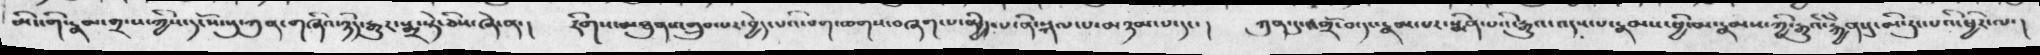མིང་གི་རྣམ་གྲངས་ཀྱིས་དངོས་སུ་ཀུན་གཞིའ་ཉིད་རྒྱུར་སྨྲ་སྟེ་ཅིས་ཞེ་ན་།   རིགས་མཐུན་འགྲུབ་པར་བྱེད་པའི་བག་ཆགས་བཞག་པ་མྱིད་པ་ནི་སྐལ་པ་མཉམ་པ་དང་།  ཀུན་དུ་འགྲོ་བ་དང་རྣམ་པར་སྨིན་པའི་རྒྱུའ་འདས་པ་རྣམས་ཕྱི་མ་རྣམས་ཀྱི་རྒྱུའི་རྐྱེན་དུ་མི་རུང་པའི་ཕྱིར་ལ
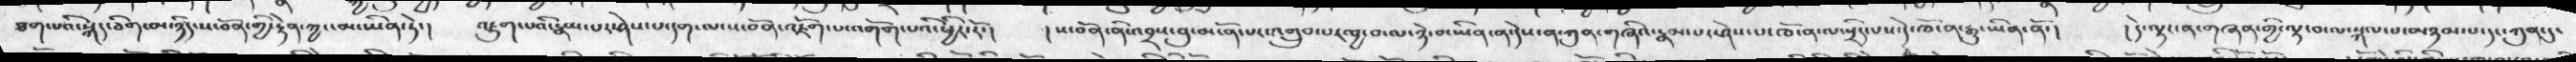ཐག་པའི་སྐད་ཅིག་མ་ཉིད་ས་བོན་གྱི་རྟེན་ཀྱང་མ་ཡིན་ཏེ་།  འཇུག་པའི་རྣམ་པར་ཤེས་པ་དག་ལ་ས་བོན་འཇོག་པ་འགོག་པའི་ཕྱིར་རོ་།  ། ས་བོན་ནི་འབྲས་བུ་མངོན་པར་འགྲུབ་པར་བྱ་བ་ལ་ཉེ་བ་ཡིན་ན་དེས་ན་ཀུན་གཞིའ་རྣམ་པར་ཤེས་པ་ཁོ་ན་ལ་སྲིད་པས་དེ་ཁོ་ན་རྒྱུ་ཡིན་ནོ་།  ། དེ་ལྟར་ན་གཞན་གྱི་ལྟ་བ་ལ་སྐལ་པ་མཉམ་པ་དངད་ཀུན་དུ་
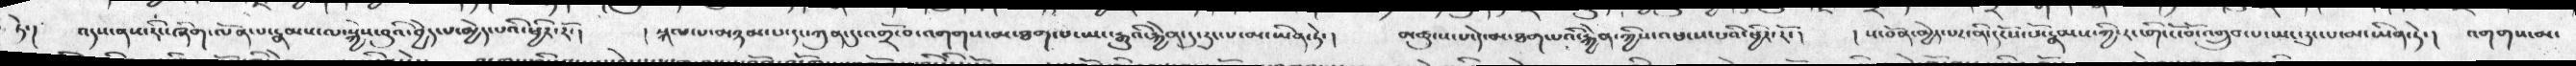ཏེ་།   འདས་ནས་རིང་ཞིག་ལོན་པ་རྣམས་ལ་སྐྱེས་བུ་བྱེད་པ་མྱེད་པའི་ཕྱིར་རོ་།   །  སྐལ་པ་མཉམ་པ་དང་ཀུན་དུ་འགྲོ་བ་འགགས་མ་ཐག་པ་ཡང་རྒྱུའི་རྐྱེན་དུ་རུང་པ་མ་ཡིན་ཏེ་།  མཚུངས་པ་དེ་མ་ཐག་པའི་རྐྱེན་ཀྱིས་འཕངས་པའི་ཕྱིར་རོ་།  ། ས་བོན་མྱེད་པར་ནི་དངོས་པོ་རྣམས་ཀྱི་རང་གི་ངོ་བོ་འགྲུབ་པ་ཡང་རུང་པ་མ་ཡིན་ཏེ་།  འགགས་མ་
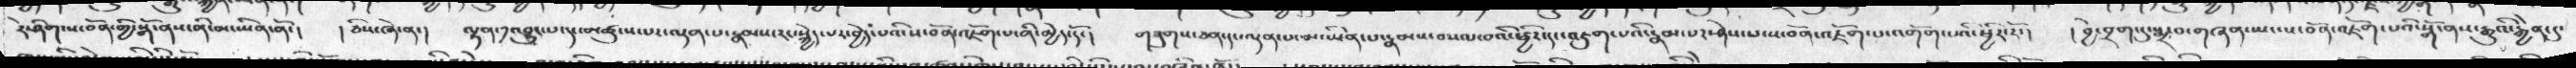རེ་ཤིག་ས་བོན་གྱི་སྒོ་ནས་ནི་མ་ཡིན་ནོ་།   ། ཅིས་ཞེ་ན་།   ལྷན་༡་འབྱུང་པ་དང་མཚུངས་པར་ལྡན་པ་རྣམས་རང་སྐྱེད་པར་བྱེད་པའི་ས་བོན་འཇོག་པ་ནི་མྱེད་དོ་།  གཟུགས་ཅན་དང་ལྡན་པ་མ་ཡིན་པ་རྣམས་བསལ་བའི་ཕྱིར་དང་འཇུག་པའི་རྣམ་པར་ཤེས་པ་ས་བོན་འཇོག་པ་འགོག་པའི་ཕྱིར་རོ་།   ། བྱེ་བྲག་དུ་སྨྲ་བ་གཞན་ཡང་ས་བོན་འཇོག་པའི་སྒོ་ནས་རྒྱུའི་རྐྱེན་དུ་
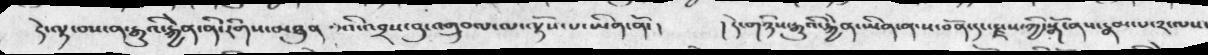ཏེ་ལྟ་བས་ན་རྒྱུའི་རྐྱེན་ནི་རིགས་མཐུན་པའི་འབྲས་བུ་འགྲུབ་པ་ལ་ལྟོས་པ་ཡིན་ནོ་།   ། དེ་གཉིས་རྒྱུའི་རྐྱེན་ཡིན་ན་ས་བོན་དང་རྗས་ཀྱི་སྒོ་ནས་རྣམ་པ་༢་ལས་
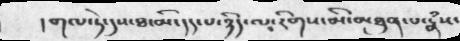།གལ་ཏེ་དུས་ཐ་མི་དད་པ་ཉིད་ལ་རིགས་མི་མཐུན་པ་རྣཾས་
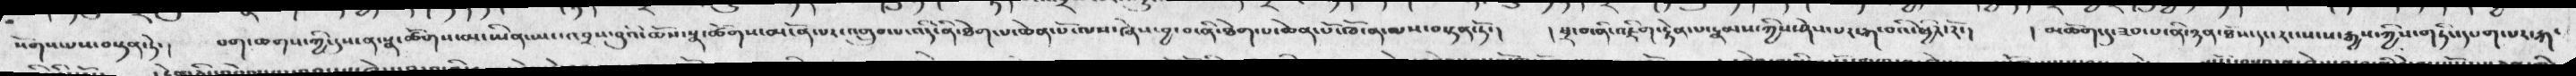སོགས་པས་བསྟན་ཏེ་།   པག་ཆགས་གྱི་དུས་ན་སྣ་ཚོགས་མ་ཡིན་ཡང་འབྲས་བུའི་ཆོས་སྣ་ཚོགས་མངོན་པར་འགྲུབ་པ་འདི་ནི་ཐེག་པ་ཆེན་པོ་ལས་ཞེས་བྱ་བ་ནི་ཐེག་པ་ཆེན་པོ་ཁོ་ན་ལས་བསྟན་ཏོ་།  ། སྲ་བ་ནི་འཇིག་རྟེན་པ་རྣམས་ཀྱིས་ཤེས་པར་རྒ་བའི་ཕྱིར་རོ་།  ། མཆོག་དུ་ཟབ་པ་ནི་ཉན་ཐོས་དང་རང་སངས་རྒྱས་ཀྱིས་གཏིང་དཔག་པར་རྐ་
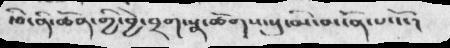རྩི་ནི་ཚོན་གྱི་བྱེ་བྲག་སྣ་ཚོགས་སུ་མི་མངོན་པའོ་།
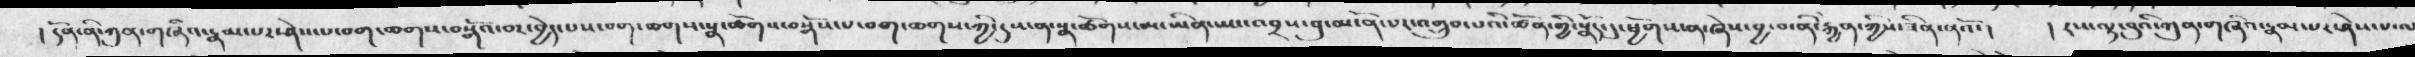། དོན་ནི་ཀུན་གཞིའ་རྣམ་པར་ཤེས་པ་བག་ཆགས་བསྒོའ་བར་བྱེད་པས་བག་ཆགས་སྣ་ཚོགས་བསྒོས་པ་བག་ཆགས་ཀྱི་དུས་ན་སྣ་ཚོགས་མ་ཡིན་ཡང་འབྲས་བུ་མངོན་པར་འགྲུབ་པའི་ཚོན་གྱི་སྣོད་དུ་ཕྱོགས་ན་ཞེས་སབྱ་བ་ནི་རྐྱེན་ཀྱིས་ཟིན་ནའོ་།     ། རས་ལྟ་བུའི་ཀུན་གཞིའ་རྣམ་པར་ཤེས་པ་ལ
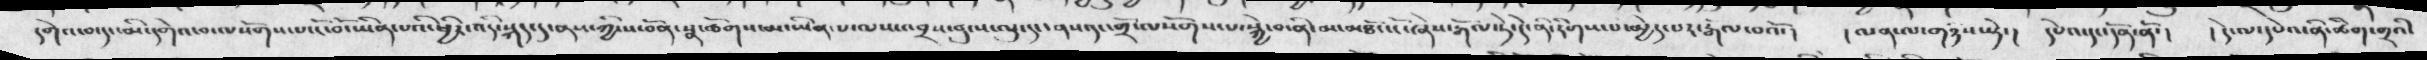དགེའ་བ་དང་མི་དགེའ་བ་ལསོགས་པ་ངོ་བོ་ཡིན་པའི་ཕྱིར་འདི་སྐད་དུ་ནས་གྱི་ས་བོན་སྣ་ཚོགས་མ་ཡིན་པ་ལས་འབྲས་བུ་ས་ལུ་དང་ནས་དང་གྲོ་ལསོགས་སྐྱེ་བ་ནི་མཐོང་ངོ་ཞེས་རྒོལ་ཏེ་དེ་ནི་རིགས་མྱེད་པར་རྒོལ་བའོ་།   ། ལན་ལ་གཉིས་སྟེ་།  དཔེའ་དང་དོན་ནོ་།   ། དེ་ལ་དཔེའ་ནི་ཚིག་གྲའི་
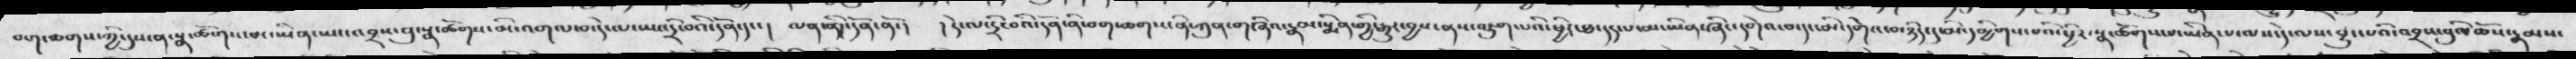བག་ཆགས་ཀྱི་དུས་ན་སྣ་ཚོགས་པ་ཡིན་ཡང་འབྲས་བུ་སྣ་ཚོགས་མི་འགལ་བ་དེ་ལ་ཡང་དྲི་བའི་དོན་དང་།  ལན་༡དི་དོན་ནོ་།  ། དེ་ལ་དྲི་བའི་དོན་ནི་བག་ཆགས་ནི་ཀུན་གཞིའ་རྣམ་སྨིན་གྱི་རྒྱུར་བྱས་ནས་འཇུག་པའི་ཕྱིར་ཐ་དད་པ་མ་ཡིན་ཞིང་དགེའ་བ་དང་མི་དགེའ་བ་ཉིད་དུ་མི་དམྱིགས་པའི་ཕྱིར་སྣ་ཚོགས་པ་ཡིན་པ་ལས་དེ་ལས་བྱུང་པའི་འབྲས་བུའི་ཆོས་རྣམས་
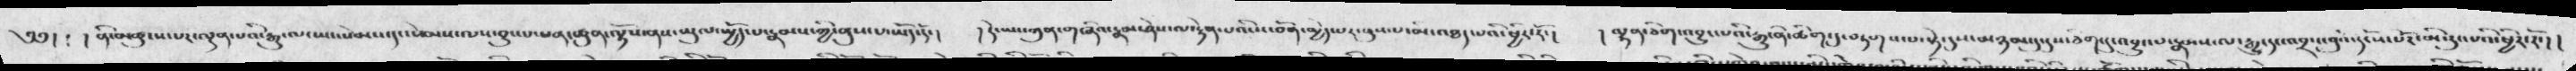༄༅། ༴  །  ནིས་བཅུ་ས་པར་ལྡན་པའི་རྒྱུ་ལ་ཡང་སེམས་དང་སེམས་ལས་བྱུང་པ་ཕན་ཚུན་ལྟོས་ནས་ཡུལ་སྤྱོད་པ་རྣམས་ཀྱི་ནུས་པ་ཡོད་དེ་།  ། དེ་ཡང་ཀུན་གཞིས་རྣམ་ཤེས་ལ་རྟེན་པའི་ས་བོན་མྱེད་པར་ཕུས་པ་མི་འཐད་པའི་ཕྱིར་རོ་།  ། ལྷན་ཅིག་འབྱུང་པའི་རྒྱུ་ནི་ཚིག་དུ་བཏགས་པ་སྟེ་དུས་མཉམ་དུ་དུས་ཅིག་དུ་འབྱུང་པ་རྣམས་ལ་རྒྱུ་དང་འབྲས་བུའི་དངོས་པོར་མི་རུང་པའི་ཕྱིར་རོ་། །
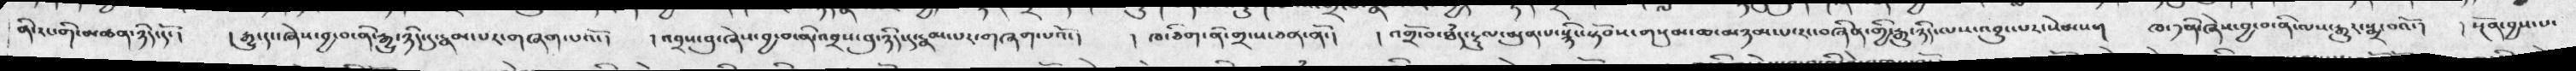ནི་རང་གི་མཚན་ཉིད་དོ་།  ། རྒྱུ་དང་ཞེས་བྱ་བ་ནི་རྒྱུ་ཉིད་དུ་རྣམ་པར་གཞག་པའོ་།  ། འབྲས་བུ་ཞེས་བྱ་བ་ནི་འབྲས་བུ་ཉིད་དུ་རྣམ་པར་གཞག་པའོ་།  ། ཁ་ཅིག་ནི་གྲ་ས་ཅན་ནོ་།   ། འགྲོ་བ་ཐཾད་རྡུལ་མུན་པ་སྙིང་སྟོབས་གསུམ་ཆ་མཉམ་པ་རང་བཞིན་གྱི་རྒྱུ་ཉིད་ལས་འབྱུང་པར་སེམས་།  ཁ་༡ནི་ཞེས་བྱ་བ་ནི་ལས་རྒྱུར་སྨྲ་བའོ་།  ། སྔོན་བྱས་པ་
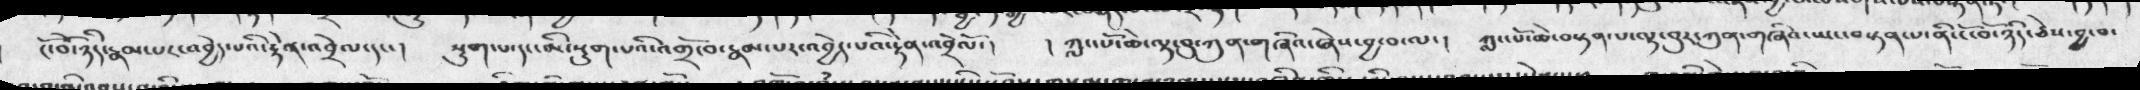ངོ་བོ་ཉིད་རྣམ་པར་འབྱེད་པའི་རྟེན་འབྲེལ་དང་།  སྡུག་པ་དང་མི་སྡུག་པའི་འགྲོ་བ་རྣམ་པར་འབྱེད་པའི་རྟེན་འབྲེལོ་།   །  ཀླང་པོ་ཆེ་ལྟ་བུ་ཀུན་གཞིའ་ཞེས་བྱ་བ་ལ་།   ཀླང་པོ་ཆེ་བསྟན་པ་ལྟ་བུར་ཀུན་གཞིའ་སྤང་བསྟན་པ་ནི་ངོ་བོ་ཉིད་ཅེས་བྱ་བ་
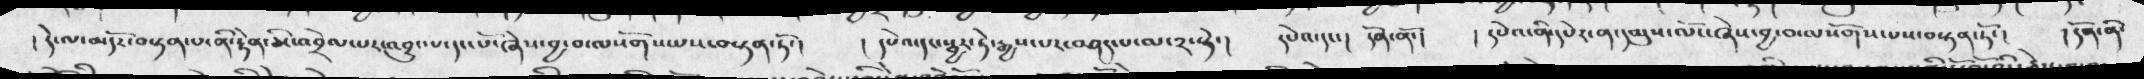། དེ་ལ་མདོར་བསྟན་པ་ནི་རྟེན་འབྲེལ་པར་འབྱུང་པ་དང་པོ་ཞེས་བྱ་བ་ལསོགས་པས་བསྟན་ཏོ་།  ། དཔེའ་དང་སྦྱར་ཏེ་རྒྱས་པར་བཤད་པ་ལ་༢་སྟེ་།   དཔེའ་དང་།  དོན་ནོ་།  ། དཔེའ་ནི་དཔེར་ན་དམུས་ལོང་ཞེས་བྱ་བ་ལསོགས་པས་བསྟན་ཏོ་།  ། དོན་ནི་
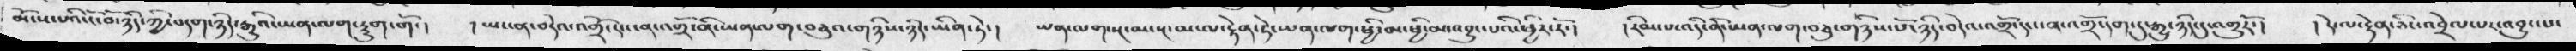མོངས་པའི་ངོ་བོ་ཉིད་ཀྱི་བདག་ཉིད་རྒྱུའི་ཡན་ལག་དྱུག་གོ་།  ། ཡང་ན་བདེའ་འགྲོ་དང་ངན་འགྲོ་ནི་ཡན་ལག་བཅུའ་གཉིས་ཉིད་ཡིན་ཏེ་།  ཡན་ལག་སྔ་མ་སྔ་མ་ལ་རྟེན་ཏེ་ཡན་ལག་ཕྱི་མ་ཕྱི་མ་འབྱུང་པའི་ཕྱིར་རོ་།  ། རིམ་པ་འདི་ནི་ཡན་ལག་བཅུ་གཉིས་པོ་ཉིད་བདེའ་འགྲོ་དང་ངན་འགྲོ་དག་དུ་རྒྱུ་ཉིད་དུ་འགྱུརོ་།   ། དེ་ལ་རྟེན་ཅིང་འབྲེལ་པར་འབྱུང་པ་
